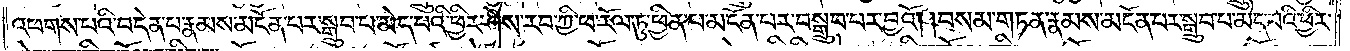འཕགས་པའི་བདེན་པ་རྣམས་མངོན་པར་སྒྲུབ་པ་མེད་པའི་ཕྱིར་ཤེས་རབ་ཀྱི་ཕ་རོལ་ཏུ་ཕྱིན་པ་མངོན་པར་བསྒྲུབ་པར་བྱའོ། །བསམ་གཏན་རྣམས་མངོན་པར་སྒྲུབ་པ་མེད་པའི་ཕྱིར་
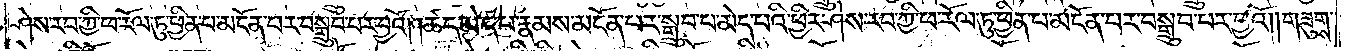ཤེས་རབ་ཀྱི་ཕ་རོལ་ཏུ་ཕྱིན་པ་མངོན་པར་བསྒྲུབ་པར་བྱའོ། །ཚད་མེད་པ་རྣམས་མངོན་པར་སྒྲུབ་པ་མེད་པའི་ཕྱིར་ཤེས་རབ་ཀྱི་ཕ་རོལ་ཏུ་ཕྱིན་པ་མངོན་པར་བསྒྲུབ་པར་བྱའོ། །གཟུགས་
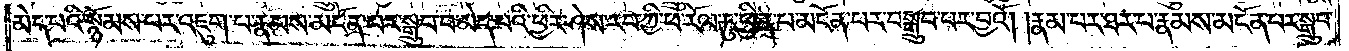མེད་པའི་སྙོམས་པར་འཇུག་པ་རྣམས་མངོན་པར་སྒྲུབ་པ་མེད་པའི་ཕྱིར་ཤེས་རབ་ཀྱི་ཕ་རོལ་ཏུ་ཕྱིན་པ་མངོན་པར་བསྒྲུབ་པར་བྱའོ། །རྣམ་པར་ཐར་པ་རྣམས་མངོན་པར་སྒྲུབ་
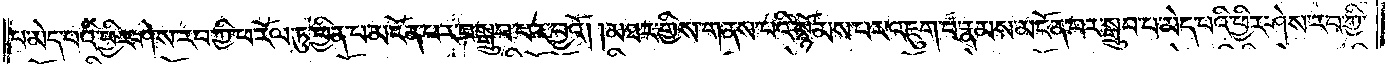པ་མེད་པའི་ཕྱིར་ཤེས་རབ་ཀྱི་ཕ་རོལ་ཏུ་ཕྱིན་པ་མངོན་པར་བསྒྲུབ་པར་བྱའོ། །མཐར་གྱིས་གནས་པའི་སྙོམས་པར་འཇུག་པ་རྣམས་མངོན་པར་སྒྲུབ་པ་མེད་པའི་ཕྱིར་ཤེས་རབ་ཀྱི་
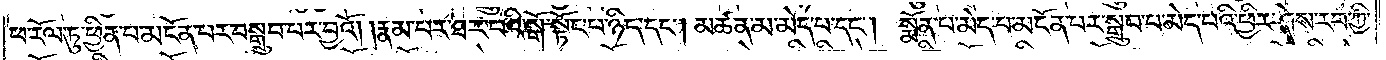ཕ་རོལ་ཏུ་ཕྱིན་པ་མངོན་པར་བསྒྲུབ་པར་བྱའོ། །རྣམ་པར་ཐར་པའི་སྒོ་སྟོང་པ་ཉིད་དང༌། མཚན་མ་མེད་པ་དང༌། སྨོན་པ་མེད་པ་མངོན་པར་སྒྲུབ་པ་མེད་པའི་ཕྱིར་ཤེས་རབ་ཀྱི་
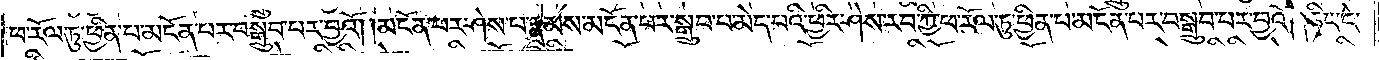ཕ་རོལ་ཏུ་ཕྱིན་པ་མངོན་པར་བསྒྲུབ་པར་བྱའོ། །མངོན་པར་ཤེས་པ་རྣམས་མངོན་པར་སྒྲུབ་པ་མེད་པའི་ཕྱིར་ཤེས་རབ་ཀྱི་ཕ་རོལ་ཏུ་ཕྱིན་པ་མངོན་པར་བསྒྲུབ་པར་བྱའོ། །ཏིང་ངེ་
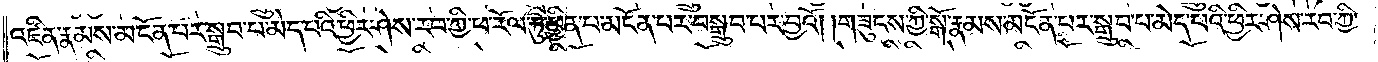འཛིན་རྣམས་མངོན་པར་སྒྲུབ་པ་མེད་པའི་ཕྱིར་ཤེས་རབ་ཀྱི་ཕ་རོལ་ཏུ་ཕྱིན་པ་མངོན་པར་བསྒྲུབ་པར་བྱའོ། །གཟུངས་ཀྱི་སྒོ་རྣམས་མངོན་པར་སྒྲུབ་པ་མེད་པའི་ཕྱིར་ཤེས་རབ་ཀྱི་
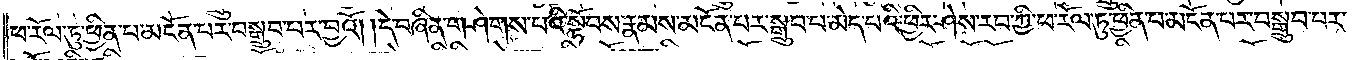ཕ་རོལ་ཏུ་ཕྱིན་པ་མངོན་པར་བསྒྲུབ་པར་བྱའོ། །དེ་བཞིན་གཤེགས་པའི་སྟོབས་རྣམས་མངོན་པར་སྒྲུབ་པ་མེད་པའི་ཕྱིར་ཤེས་རབ་ཀྱི་ཕ་རོལ་ཏུ་ཕྱིན་པ་མངོན་པར་བསྒྲུབ་པར་
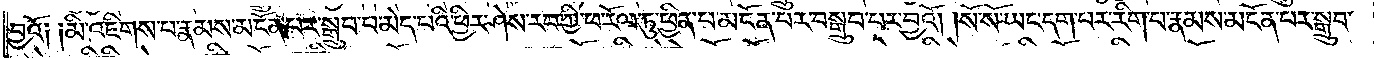བྱའོ༑ ༑མི་འཇིགས་པ་རྣམས་མངོན་པར་སྒྲུབ་པ་མེད་པའི་ཕྱིར་ཤེས་རབ་ཀྱི་ཕ་རོལ་ཏུ་ཕྱིན་པ་མངོན་པར་བསྒྲུབ་པར་བྱའོ། །སོ་སོ་ཡང་དག་པར་རིག་པ་རྣམས་མངོན་པར་སྒྲུབ་
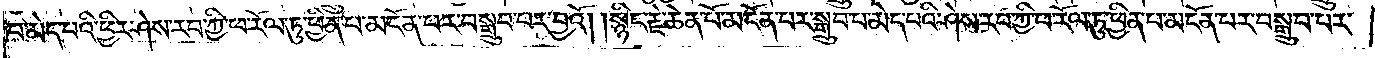པ་མེད་པའི་ཕྱིར་ཤེས་རབ་ཀྱི་ཕ་རོལ་ཏུ་ཕྱིན་པ་མངོན་པར་བསྒྲུབ་པར་བྱའོ། །སྙིང་རྗེ་ཆེན་པོ་མངོན་པར་སྒྲུབ་པ་མེད་པའི་ཕྱིར་ཤེས་རབ་ཀྱི་ཕ་རོལ་ཏུ་ཕྱིན་པ་མངོན་པར་བསྒྲུབ་པར་
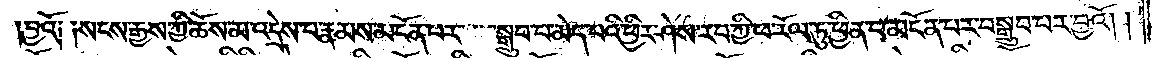བྱའོ༑ ༑སངས་རྒྱས་ཀྱི་ཆོས་མ་འདྲེས་པ་རྣམས་མངོན་པར་སྒྲུབ་པ་མེད་པའི་ཕྱིར་ཤེས་རབ་ཀྱི་ཕ་རོལ་ཏུ་ཕྱིན་པ་མངོན་པར་བསྒྲུབ་པར་བྱའོ། །
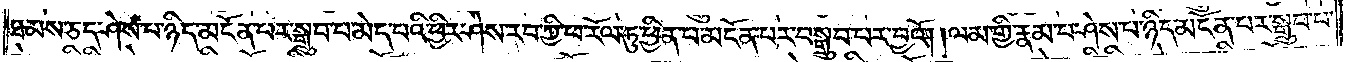ཐམས་ཅད་ཤེས་པ་ཉིད་མངོན་པར་སྒྲུབ་པ་མེད་པའི་ཕྱིར་ཤེས་རབ་ཀྱི་ཕ་རོལ་ཏུ་ཕྱིན་པ་མངོན་པར་བསྒྲུབ་པར་བྱའོ། །ལམ་གྱི་རྣམ་པ་ཤེས་པ་ཉིད་མངོན་པར་སྒྲུབ་པ་
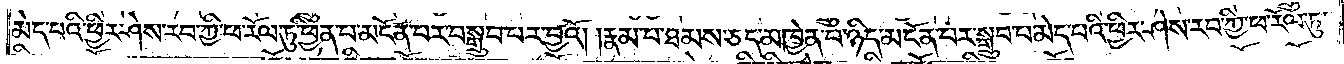མེད་པའི་ཕྱིར་ཤེས་རབ་ཀྱི་ཕ་རོལ་ཏུ་ཕྱིན་པ་མངོན་པར་བསྒྲུབ་པར་བྱའོ། །རྣམ་པ་ཐམས་ཅད་མཁྱེན་པ་ཉིད་མངོན་པར་སྒྲུབ་པ་མེད་པའི་ཕྱིར་ཤེས་རབ་ཀྱི་ཕ་རོལ་ཏུ་
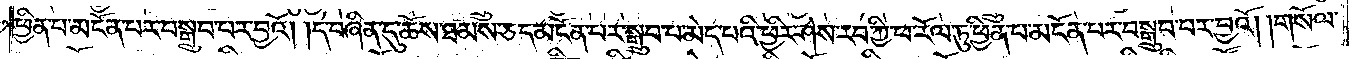ཕྱིན་པ་མངོན་པར་བསྒྲུབ་པར་བྱའོ། །དེ་བཞིན་དུ་ཆོས་ཐམས་ཅད་མངོན་པར་སྒྲུབ་པ་མེད་པའི་ཕྱིར་ཤེས་རབ་ཀྱི་ཕ་རོལ་ཏུ་ཕྱིན་པ་མངོན་པར་བསྒྲུབ་པར་བྱའོ། །གསོལ་
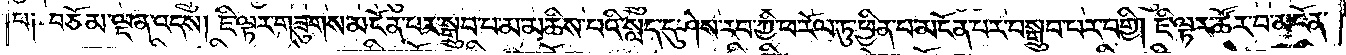པ༑ བཅོམ་ལྡན་འདས། ཇི་ལྟར་གཟུགས་མངོན་པར་སྒྲུབ་པ་མ་མཆིས་པའི་སླད་དུ་ཤེས་རབ་ཀྱི་ཕ་རོལ་ཏུ་ཕྱིན་པ་མངོན་པར་བསྒྲུབ་པར་བགྱི། ཇི་ལྟར་ཚོར་བ་མངོན་
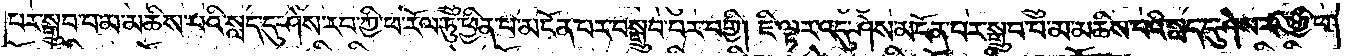པར་སྒྲུབ་པ་མ་མཆིས་པའི་སླད་དུ་ཤེས་རབ་ཀྱི་ཕ་རོལ་ཏུ་ཕྱིན་པ་མངོན་པར་བསྒྲུབ་པར་བགྱི། ཇི་ལྟར་འདུ་ཤེས་མངོན་པར་སྒྲུབ་པ་མ་མཆིས་པའི་སླད་དུ་ཤེས་རབ་ཀྱི་ཕ་
